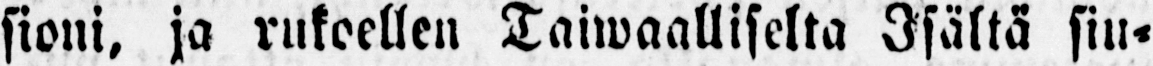sioni, ja rukoellen Taiwaalliselta Isältä siu-
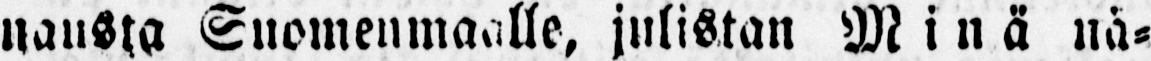nausta Suomenmaalle, julistan Minä nä-
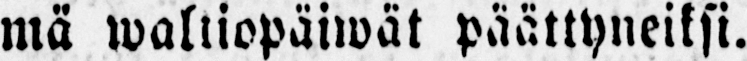mä waltiopäiwät päättyneiksi.
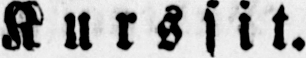Kurssit.
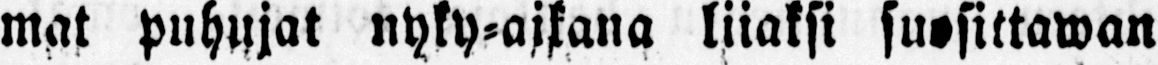mat puhujat nyky-aikana liiaksi suosittawan
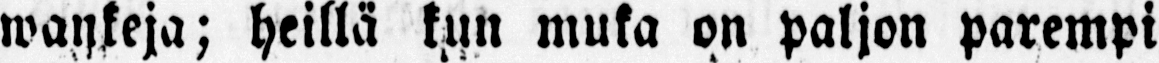wankeja; heillä kun muka on paljon parempi
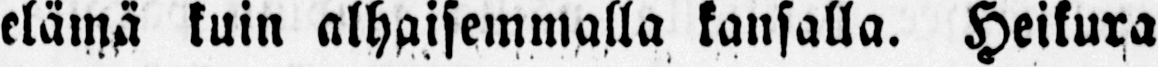elämä kuin alhaisemmalla kansalla. Heikura
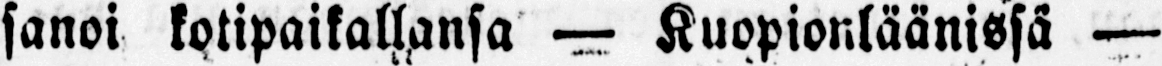sanoi kotipaikallansa — Kuopionläänissä —
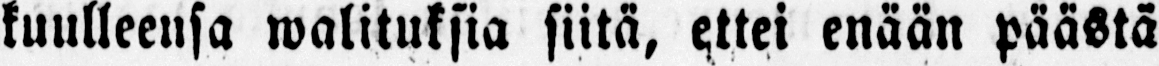kuulleensa walituksia siitä, ettei enään päästä
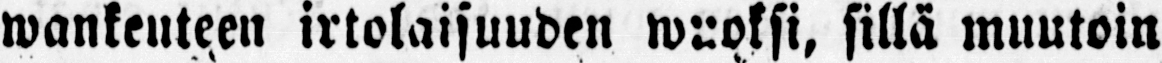wankeuteen irtolaisuuden wuoksi, sillä muutoin
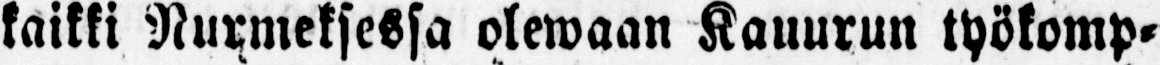kaikki Nurmeksessa olewaan Kauurun työkomp-
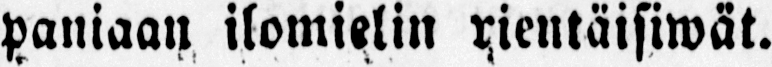paniaan ilomielin rientäisiwät.
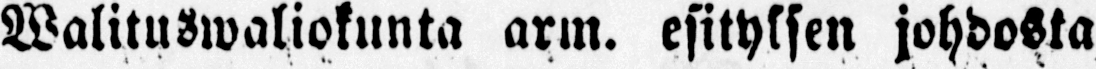Valituswaliokunta arm. esityksen johdosta
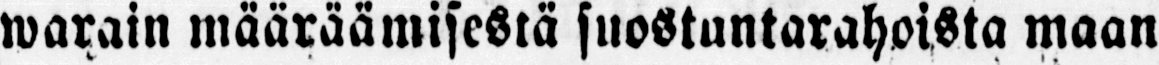warain määräämisestä suostuntarahoista maan
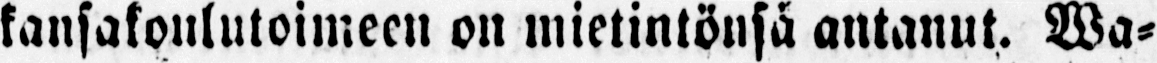kansakoulutoimeen on mietintönsä antanut. Wa-
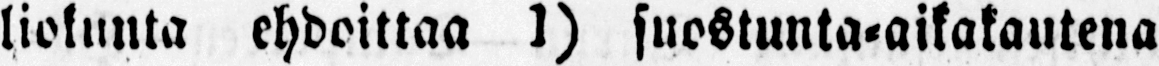liokunta ehdoittaa 1) suostunta-aikakautena
